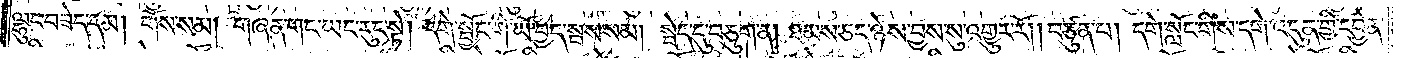ལྷུང་བཟེད་དམ། གོས་སམ། གཞན་གང་ཡང་རུང་སྟེ། དགེ་སྦྱོང་གི་ཡོ་བྱད་སྦས་སམ། སྦེད་དུ་བཅུག་ན། ཐམས་ཅད་ཉེས་བྱས་སུ་འགྱུར་རོ། །བཙུན་པ། དགེ་སློང་གིས་དགེ་འདུན་གྱི་དབྱེན་
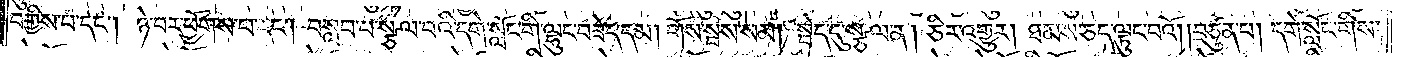བགྱིས་པ་དང༌། ཉེ་བར་ཕྱོགས་པ་དང༌། བསླབ་པ་སྩལ་པའི་དགེ་སློང་གི་ལྷུང་བཟེད་དམ། གོས་སྦས་སམ། སྦེད་དུ་སྩལ་ན། ཅིར་འགྱུར། ཐམས་ཅད་ལྟུང་བའོ། །བཙུན་པ། དགེ་སློང་གིས་
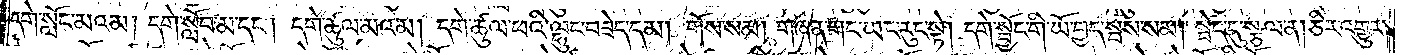དགེ་སློང་མའམ། དགེ་སློང་མ་དང༌། དགེ་ཚུལ་མའམ། དགེ་ཚུལ་ཕའི་ལྷུང་བཟེད་དམ། གོས་སམ། གཞན་གང་ཡང་རུང་སྟེ། དགེ་སྦྱོང་གི་ཡོ་བྱད་སྦས་སམ། སྦེད་དུ་སྩལ་ན། ཅིར་འགྱུར།
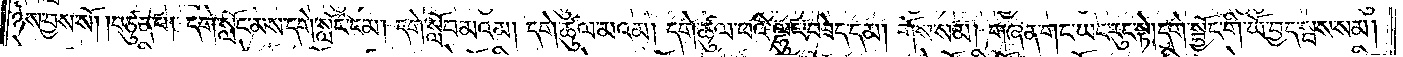ཉེས་བྱས་སོ། །བཙུན་པ། དགེ་སློང་མས་དགེ་སློང་ངམ། དགེ་སློབ་མའམ། དགེ་ཚུལ་མའམ། དགེ་ཚུལ་ཕའི་ལྷུང་བཟེད་དམ། གོས་སམ། གཞན་གང་ཡང་རུང་སྟེ། དགེ་སྦྱོང་གི་ཡོ་བྱད་སྦས་སམ།
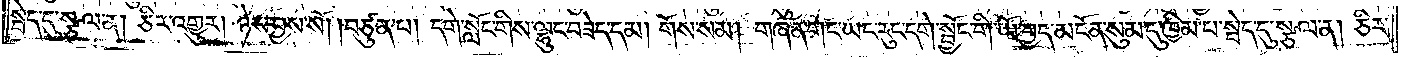སྦེད་དུ་སྩལ་ན། ཅིར་འགྱུར། ཉེས་བྱས་སོ། །བཙུན་པ། དགེ་སློང་གིས་ལྷུང་བཟེད་དམ། གོས་སམ། གཞན་གང་ཡང་རུང་དགེ་སྦྱོང་གི་ཡོ་བྱད་མངོན་སུམ་དུ་ཁྱིམ་པ་སྦེད་དུ་སྩལ་ན། ཅིར་
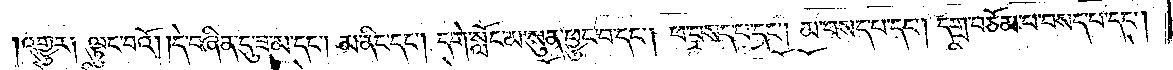འགྱུར༑ ལྟུང་བའོ། །དེ་བཞིན་དུ་ཟ་མ་དང༌། མ་ནིང་དང༌། དགེ་སློང་མ་སུན་ཕྱུང་བ་དང༌། ཕ་བསད་པ་དང༌། མ་བསད་པ་དང༌། དགྲ་བཅོམ་པ་བསད་པ་དང༌།
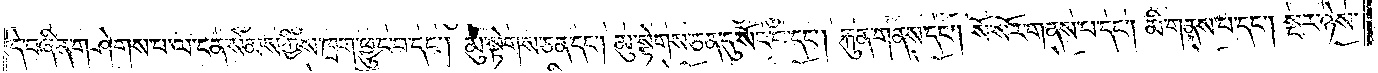དེ་བཞིན་གཤེགས་པ་ལ་ངན་སེམས་ཀྱིས་ཁྲག་ཕྱུང་བ་དང༌། མུ་སྟེགས་ཅན་དང༌། མུ་སྟེགས་ཅན་དུ་སོང་བ་དང༌། རྐུན་གནས་དང༌། སོ་སོར་གནས་པ་དང༌། མི་གནས་པ་དང༌། སྔར་ཉེས་
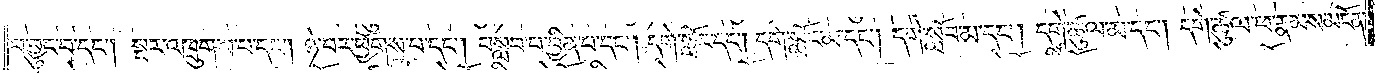བ་བྱུང་བ་དང༌། སྔར་འཁྲུགས་པ་དང༌། ཉེ་བར་ཕྱོགས་པ་དང༌། བསླབ་པ་བྱིན་པ་དང༌། དགེ་སློང་དང༌། དགེ་སློང་མ་དང༌། དགེ་སློབ་མ་དང༌། དགེ་ཚུལ་མ་དང༌། དགེ་ཚུལ་ཕ་རྣམས་མངོན་
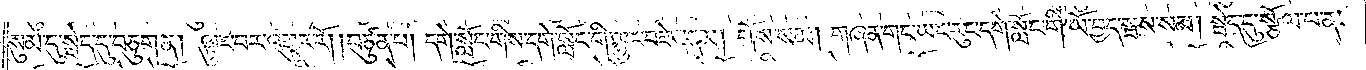སུམ་དུ་སྦེད་དུ་བཅུག་ན། ལྟུང་བར་འགྱུར་རོ། །བཙུན་པ། དགེ་སློང་གིས་དགེ་སློང་གི་ལྷུང་བཟེད་དམ། གོས་སམ། གཞན་གང་ཡང་རུང་དགེ་སློང་གི་ཡོ་བྱད་སྦས་སམ། སྦེད་དུ་སྩོལ་པ་ན་
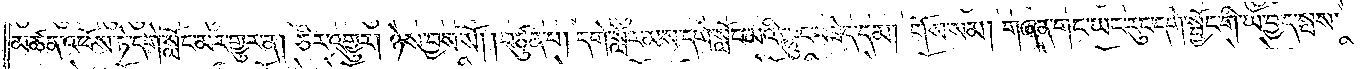མཚན་འཕོས་ཏེ་དགེ་སློང་མར་གྱུར་ན། ཅིར་འགྱུར། ཉེས་བྱས་སོ། །བཙུན་པ། དགེ་སློང་མས་དགེ་སློང་མའི་ལྷུང་བཟེད་དམ། གོས་སམ། གཞན་གང་ཡང་རུང་དགེ་སྦྱོང་གི་ཡོ་བྱད་སྦས་
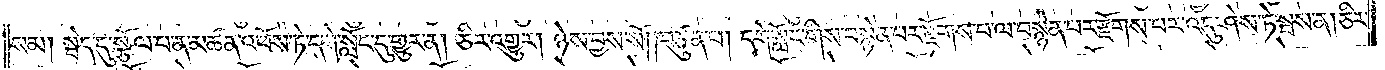སམ། སྦེད་དུ་སྩོལ་པ་ན་མཚན་འཕོས་ཏེ་དགེ་སློང་དུ་གྱུར་ན། ཅིར་འགྱུར། ཉེས་བྱས་སོ། །བཙུན་པ། དགེ་སློང་གིས་བསྙེན་པར་རྫོགས་པ་ལ་བསྙེན་པར་རྫོགས་པར་འདུ་ཤེས་ཏེ་སྦས་ན། ཅིར་
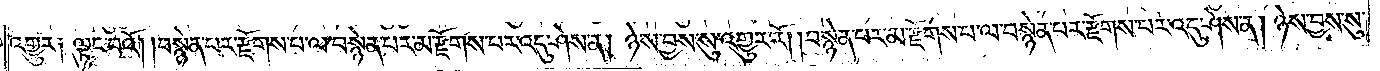འགྱུར། ལྟུང་བའོ། །བསྙེན་པར་རྫོགས་པ་ལ་བསྙེན་པར་མ་རྫོགས་པར་འདུ་ཤེས་ན། ཉེས་བྱས་སུ་འགྱུར་རོ། །བསྙེན་པར་མ་རྫོགས་པ་ལ་བསྙེན་པར་རྫོགས་པར་འདུ་ཤེས་ན། ཉེས་བྱས་སུ་
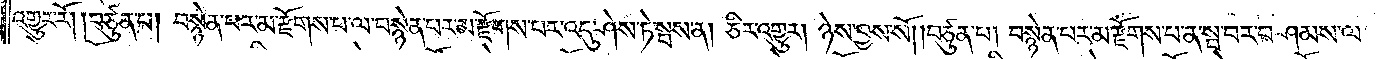འགྱུར་རོ། །བཙུན་པ། བསྙེན་པར་མ་རྫོགས་པ་ལ་བསྙེན་པར་མ་རྫོགས་པར་འདུ་ཤེས་ཏེ་སྦས་ན། ཅིར་འགྱུར། ཉེས་བྱས་སོ། །བཙུན་པ། བསྙེན་པར་མ་རྫོགས་པ་ན་སྦ་བར་བཤམས་ལ་
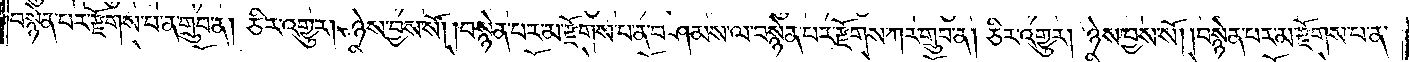བསྙེན་པར་རྫོགས་པ་ན་གྲུབ་ན། ཅིར་འགྱུར། ཉེས་བྱས་སོ། །བསྙེན་པར་མ་རྫོགས་པ་ན་བཤམས་ལ་བསྙེན་པར་རྫོགས་ཀར་གྲུབ་ན། ཅིར་འགྱུར། ཉེས་བྱས་སོ། །བསྙེན་པར་མ་རྫོགས་པ་ན་
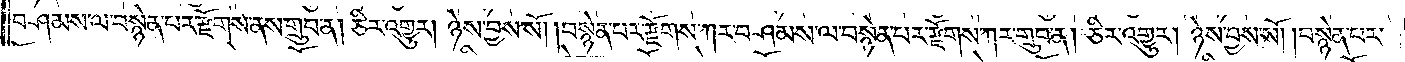བཤམས་ལ་བསྙེན་པར་རྫོགས་ནས་གྲུབ་ན། ཅིར་འགྱུར། ཉེས་བྱས་སོ། །བསྙེན་པར་རྫོགས་ཀར་བཤམས་ལ་བསྙེན་པར་རྫོགས་ཀར་གྲུབ་ན། ཅིར་འགྱུར། ཉེས་བྱས་སོ། །བསྙེན་པར་
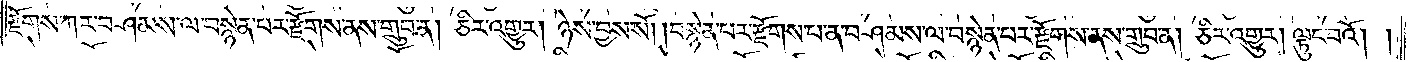རྫོགས་ཀར་བཤམས་ལ་བསྙེན་པར་རྫོགས་ནས་གྲུབ་ན། ཅིར་འགྱུར། ཉེས་བྱས་སོ། །བསྙེན་པར་རྫོགས་པ་ན་བཤམས་ལ་བསྙེན་པར་རྫོགས་ནས་གྲུབ་ན། ཅིར་འགྱུར། ལྟུང་བའོ། །
